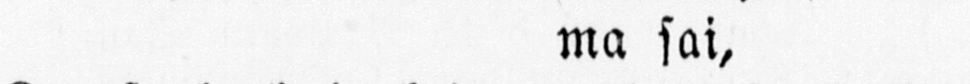ma sai,
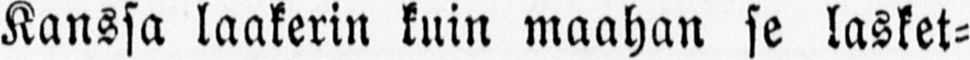Kanssa laakerin kuin maahan se lasket-
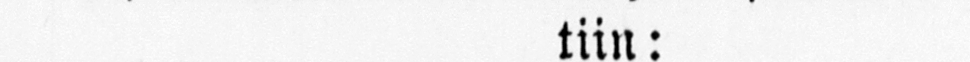tiin:
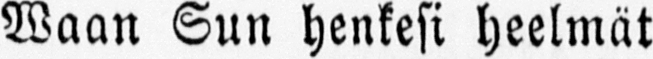Waan Sun henkesi heelmät
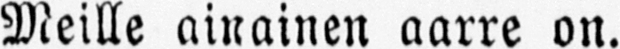Meille ainainen aarre on.
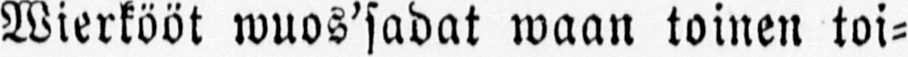Wierkööt wuos'sadat waan toinen toi-
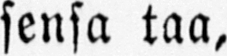sensa taa,
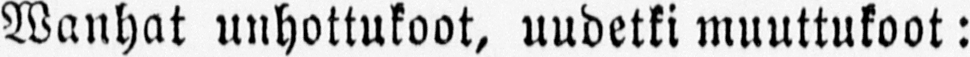Wanhat unhottukoot, uudetki muuttukoot:
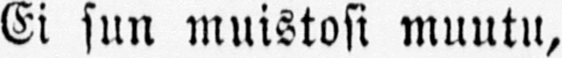Ei sun muistosi muutu,
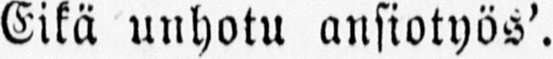Eikä unhotu ansiotyös'.
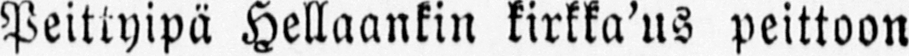Peittyipä Hellaankin kirkka'us peittoon
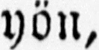yön,
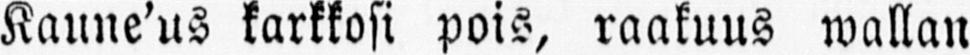Kaune'us karkkosi pois, raakuus wallan
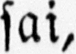sai,
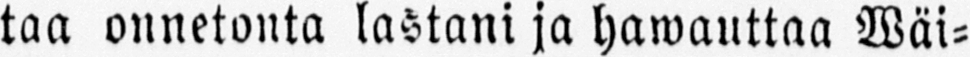taa onnetonta lastani ja hawauttaa Wäi-
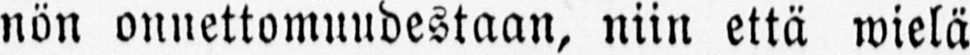nön onuettomuudestaan, niin että wielä
